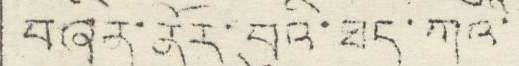བཞིན་ནོར་བུའི་ཐད་ཀའི་
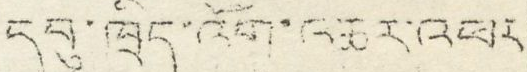དབུ་ཁྲིད་འོག་འཆར་འཕར
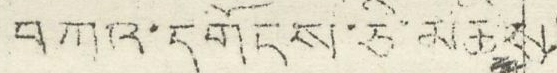བཀའ་དགོངས་ཅི་མཆིས་
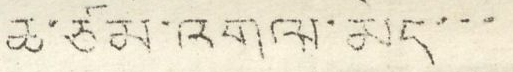ཆ་ཙམ་འགལ་མེད་་་
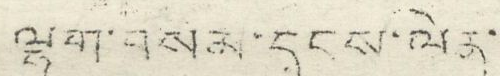ལྷག་བསམ་དངས་ལེན་
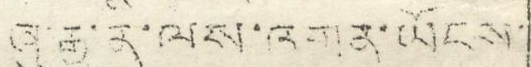ཞུ་རྒྱུ་ནི་ལས་འགན་ཡོངས་
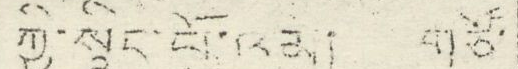ཀྱི་སྙིང་པོ་ལམ་། གཙོ་
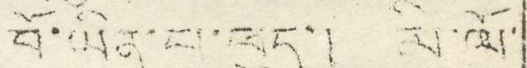བོ་ཡིན་པ་ཕུད་། མི་ལོ་
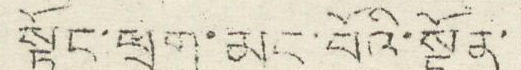སྟོང་ཕྲག་མང་པོའི་སྔོན་
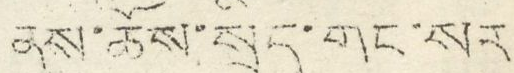ནས་ཆོས་སྲིད་གང་སར
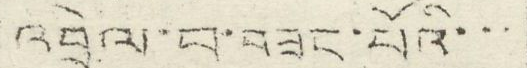འབྲེལ་བ་བཟང་པོའི་་་
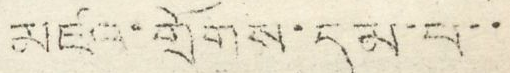མཛའ་གྲོགས་དམ་པ་་
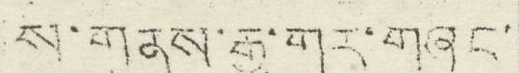ས་གནས་རྒྱ་གར་གཞུང་
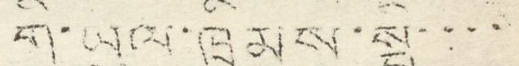གི་ཡུལ་ཁྲིམས་སྤྱི་་་་
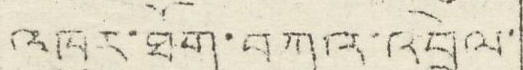འཁུར་ཐོག་བཀའ་འབྲེལ་
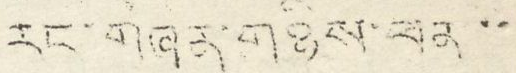རང་གཞན་གཉིས་ཕན་་
